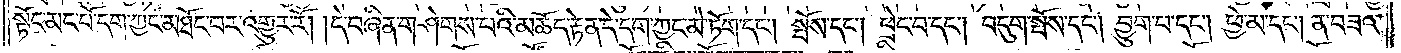སྟོང་མང་པོ་དག་ཀྱང་མཐོང་བར་འགྱུར་རོ། །དེ་བཞིན་གཤེགས་པའི་མཆོད་རྟེན་དེ་དག་ཀྱང་མེ་ཏོག་དང༌། སྤོས་དང༌། ཕྲེང་བ་དང༌། བདུག་སྤོས་དང༌། བྱུག་པ་དང༌། ཕྱེ་མ་དང༌། ན་བཟའ་
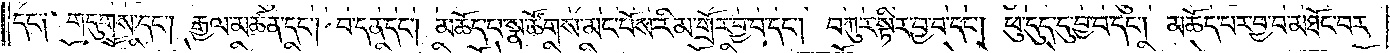དང༌། གདུགས་དང༌། རྒྱལ་མཚན་དང༌། བ་དན་དང༌། མཆོད་པ་སྣ་ཚོགས་མང་པོས་རིམ་གྲོར་བྱ་བ་དང༌། བཀུར་སྟིར་བྱ་བ་དང༌། ཕུ་དུད་དུ་བྱ་བ་དང༌། མཆོད་པར་བྱ་བ་མཐོང་བར་
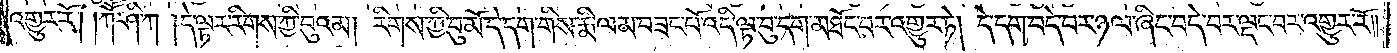འགྱུར་རོ། །ཀཽ་ཤི་ཀ །དེ་ལྟར་རིགས་ཀྱི་བུའམ། རིགས་ཀྱི་བུ་མོ་དེ་དག་གིས་རྨི་ལམ་བཟང་པོ་འདི་ལྟ་བུ་དག་མཐོང་བར་འགྱུར་ཏེ། དེ་དག་བདེ་བར་ཉལ་ཞིང་བདེ་བར་ལྡང་བར་འགྱུར་རོ། །
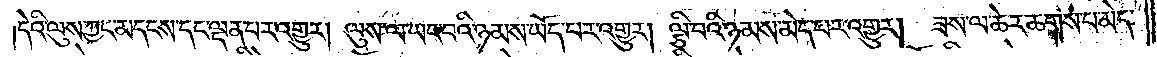དེའི་ལུས་ཀྱང་མདངས་དང་ལྡན་པར་འགྱུར། ལུས་ལ་ཡང་བའི་ཉམས་ཡོད་པར་འགྱུར། ལྕི་བའི་ཉམས་མེད་པར་འགྱུར། ཟས་ལ་ཆེར་ཆགས་པ་མེད་
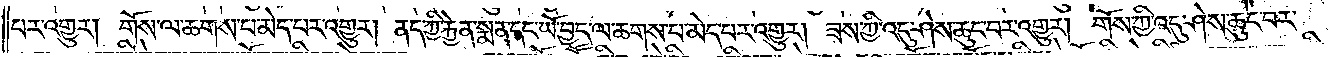པར་འགྱུར། གོས་ལ་ཆགས་པ་མེད་པར་འགྱུར། ནད་ཀྱི་རྐྱེན་སྨན་དང་ཡོ་བྱད་ལ་ཆགས་པ་མེད་པར་འགྱུར། ཟས་ཀྱི་འདུ་ཤེས་ཆུང་བར་འགྱུར། གོས་ཀྱི་འདུ་ཤེས་ཆུང་བར་
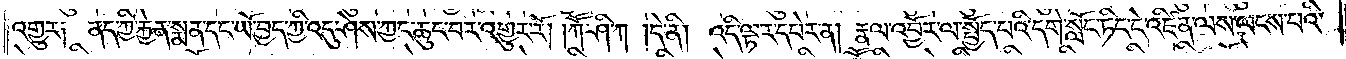འགྱུར། ནད་ཀྱི་རྐྱེན་སྨན་དང་ཡོ་བྱད་ཀྱི་འདུ་ཤེས་ཀྱང་ཆུང་བར་འགྱུར་རོ། །ཀཽ་ཤི་ཀ །དེ་ནི། འདི་ལྟར་དཔེར་ན། རྣལ་འབྱོར་ལ་སྤྱོད་པའི་དགེ་སློང་ཏིང་ངེ་འཛིན་ལས་ལངས་པའི་
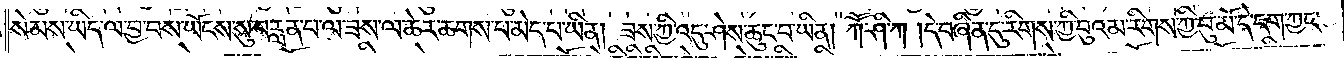སེམས་ཡིད་ལ་བྱ་བས་ཡོངས་སུ་བརླན་པ་ལ་ཟས་ལ་ཆེར་ཆགས་པ་མེད་པ་ཡིན། ཟས་ཀྱི་འདུ་ཤེས་ཆུང་བ་ཡིན། ཀཽ་ཤི་ཀ །དེ་བཞིན་དུ་རིགས་ཀྱི་བུའམ་རིགས་ཀྱི་བུ་མོ་དེ་དག་ཀྱང་
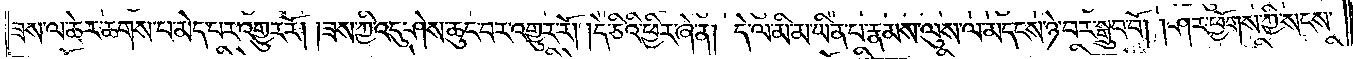ཟས་ལ་ཆེར་ཆགས་པ་མེད་པར་འགྱུར་རོ། །ཟས་ཀྱི་འདུ་ཤེས་ཆུང་བར་འགྱུར་རོ། །དེ་ཅིའི་ཕྱིར་ཞེ་ན། དེ་ལ་མི་མ་ཡིན་པ་རྣམས་ལུས་ལ་མདངས་ཉེ་བར་སྒྲུབ་བོ། །ཤར་ཕྱོགས་ཀྱི་སངས་
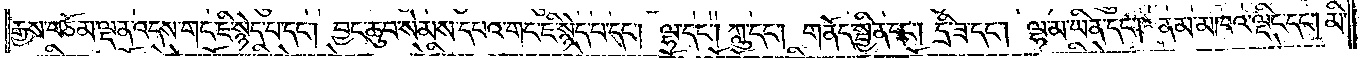རྒྱས་བཅོམ་ལྡན་འདས་གང་ཇི་སྙེད་པ་དང༌། བྱང་ཆུབ་སེམས་དཔའ་གང་ཇི་སྙེད་པ་དང༌། ལྷ་དང༌། ཀླུ་དང༌། གནོད་སྦྱིན་དང༌། དྲི་ཟ་དང༌། ལྷ་མ་ཡིན་དང༌། ནམ་མཁའ་ལྡིང་དང༌། མི་
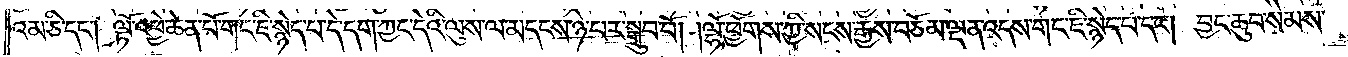འམ་ཅི་དང༌། ལྟོ་འཕྱེ་ཆེན་པོ་གང་ཇི་སྙེད་པ་དེ་དག་ཀྱང་དེའི་ལུས་ལ་མདངས་ཉེ་བར་སྒྲུབ་བོ། །ལྷོ་ཕྱོགས་ཀྱི་སངས་རྒྱས་བཅོམ་ལྡན་འདས་གང་ཇི་སྙེད་པ་དང༌། བྱང་ཆུབ་སེམས་
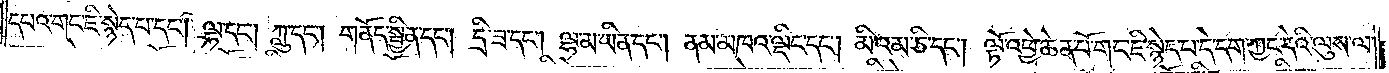དཔའ་གང་ཇི་སྙེད་པ་དང༌། ལྷ་དང༌། ཀླུ་དང༌། གནོད་སྦྱིན་དང༌། དྲི་ཟ་དང༌། ལྷ་མ་ཡིན་དང༌། ནམ་མཁའ་ལྡིང་དང༌། མི་འམ་ཅི་དང༌། ལྟོ་འཕྱེ་ཆེན་པོ་གང་ཇི་སྙེད་པ་དེ་དག་ཀྱང་དེའི་ལུས་ལ་
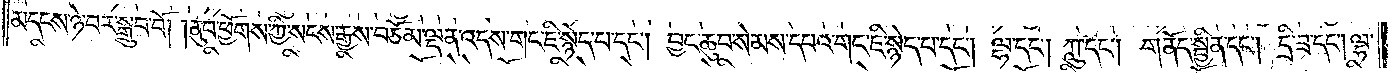མདངས་ཉེ་བར་སྒྲུབ་བོ། །ནུབ་ཕྱོགས་ཀྱི་སངས་རྒྱས་བཅོམ་ལྡན་འདས་གང་ཇི་སྙེད་པ་དང༌། བྱང་ཆུབ་སེམས་དཔའ་གང་ཇི་སྙེད་པ་དང༌། ལྷ་དང༌། ཀླུ་དང༌། གནོད་སྦྱིན་དང༌། དྲི་ཟ་དང༌། ལྷ་
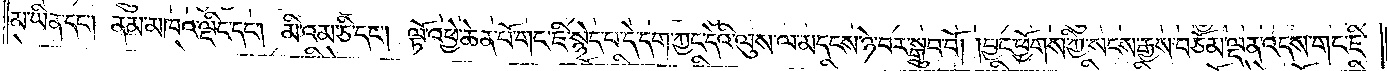མ་ཡིན་དང༌། ནམ་མཁའ་ལྡིང་དང༌། མི་འམ་ཅི་དང༌། ལྟོ་འཕྱེ་ཆེན་པོ་གང་ཇི་སྙེད་པ་དེ་དག་ཀྱང་དེའི་ལུས་ལ་མདངས་ཉེ་བར་སྒྲུབ་བོ། །བྱང་ཕྱོགས་ཀྱི་སངས་རྒྱས་བཅོམ་ལྡན་འདས་གང་ཇི་
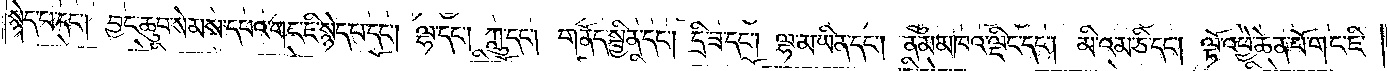སྙེད་པ་དང༌། བྱང་ཆུབ་སེམས་དཔའ་གང་ཇི་སྙེད་པ་དང༌། ལྷ་དང༌། ཀླུ་དང༌། གནོད་སྦྱིན་དང༌། དྲི་ཟ་དང༌། ལྷ་མ་ཡིན་དང༌། ནམ་མཁའ་ལྡིང་དང༌། མི་འམ་ཅི་དང༌། ལྷོ་འཕྱེ་ཆེན་པོ་གང་ཇི་
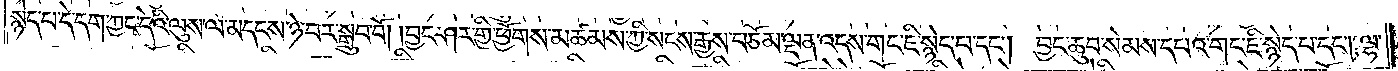སྙེད་པ་དེ་དག་ཀྱང་དེའི་ལུས་ལ་མདངས་ཉེ་བར་སྒྲུབ་བོ། །བྱང་ཤར་གྱི་ཕྱོགས་མཚམས་ཀྱི་སངས་རྒྱས་བཅོམ་ལྡན་འདས་གང་ཇི་སྙེད་པ་དང༌། བྱང་ཆུབ་སེམས་དཔའ་གང་ཇི་སྙེད་པ་དང༌། ལྷ་
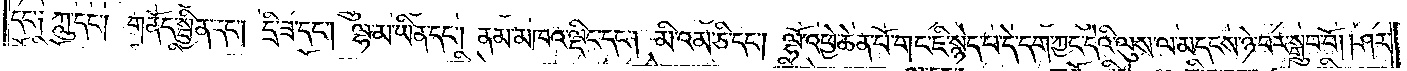དང༌། ཀླུ་དང༌། གནོད་སྦྱིན་དང༌། དྲི་ཟ་དང༌། ལྷ་མ་ཡིན་དང༌། ནམ་མཁའ་ལྡིང་དང༌། མི་འམ་ཅི་དང༌། ལྟོ་འཕྱེ་ཆེན་པོ་གང་ཇི་སྙེད་པ་དེ་དག་ཀྱང་དེའི་ལུས་ལ་མདངས་ཉེ་བར་སྒྲུབ་བོ། །ཤར་
